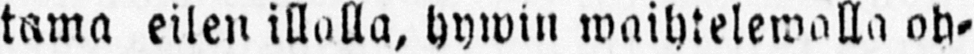tama eilen illalla, hywin waihtelewalla oh-
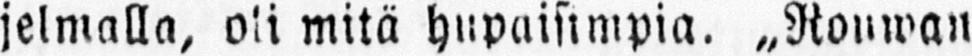jelmalla, oli mitä hupaisimpia. „Rouwan
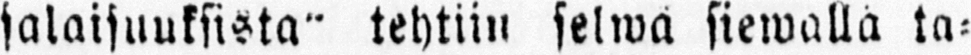salaisuuksista" tehtiin selwä siewallä ta-
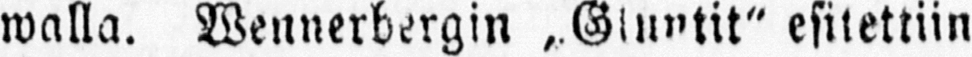walla. Wennerbergin „Gluntit" esitettiin
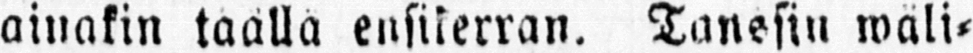ainakin täällä ensikerran. Tanssin wäli-
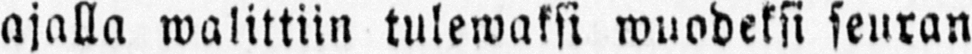ajalla walittiin tulewaksi wuodeksi seuran
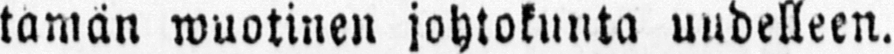tämän wuotinen johtokunta uudelleen.
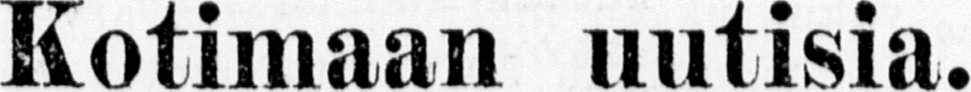Kotimaan uutisia.
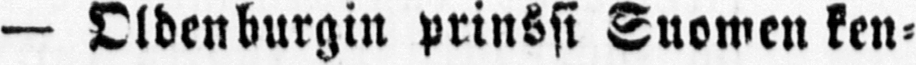— Oldenburgin prinssi Suomen ken-
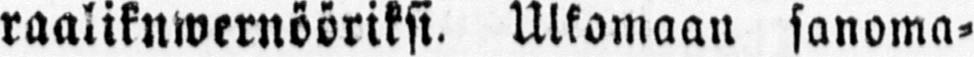raaliknwernööriksi. Ulkomaan sanoma-
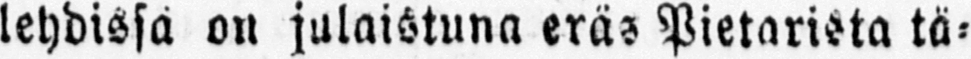lehdissä on julaistuna eräs Pietarista tä-
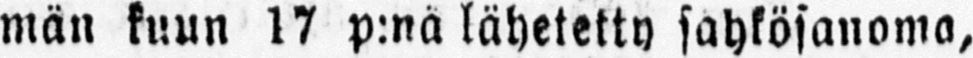män kuun 17 p:nä lähetetty sähkösanoma,
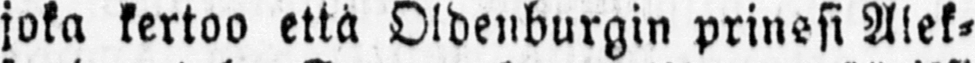joka kertoo että Oldenburgin prinssi Alek-
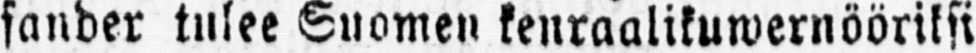sander tulee Suomen kenraalikuwernööriksi
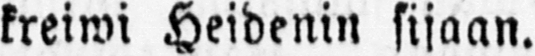kreiwi Heidenin sijaan.
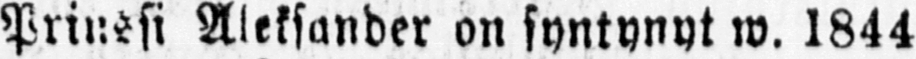Prinssi Aleksander on syntynyt w. 1844
